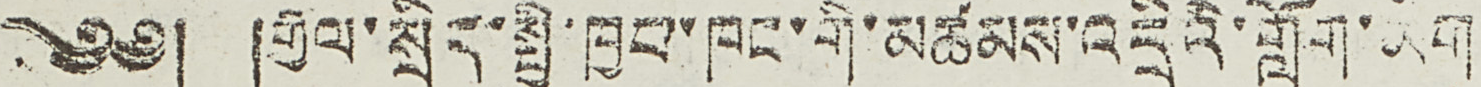༄༅། །རྒྱལ་སྲིད་སྤྱི་ཁྱབ་ཁང་གི་མཚམས་འདྲིའི་གློག་ཡིག
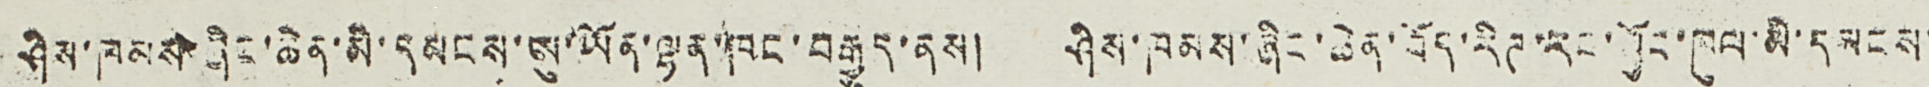ཤིས་ཁམས་ཞིང་ཆེན་མི་དམངས་ཨུ་ཡོན་ལྷན་ཁང་བརྒྱུད་ནས། ཤིས་ཁམས་ཞིང་ཆེན་བོད་རིཊ་རང་ཁུལ་མི་དམངས་
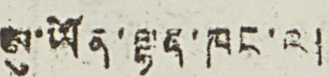ཨུ་ཡོན་ལྷན་ཁང་ལ།
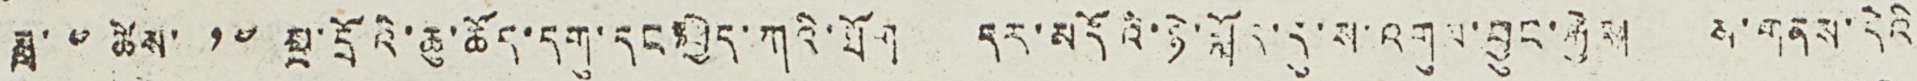ཟླ་ ༤ ཚེས་ ༡༧ སྔ་དྲོའི་ཆུ་ཚོད་དགུ་དང་ཕྱེད་ཀའི་ཐོག དར་མདོའི་ཉེ་སྐོར་དུ་ས་འགུལ་བྱུང་རྐྱེས། ས་གནས་དེའི་
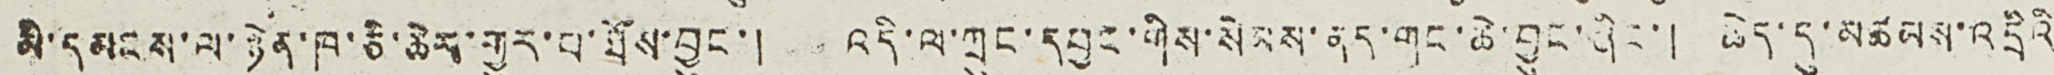མི་དམངས་ལ་ཉེན་ཁ་ཅི་ཆེར་གྱུར་པ་ཐོས་བྱུང་། འདི་ལ་ཀྲུང་དབྱང་གིས་སེམས་ནད་གང་ཆེ་བྱུང་ཞིང་། ཆེད་དུ་མཚམས་འདྲིའི་
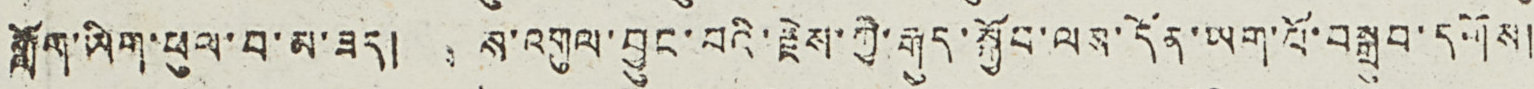གློག་ཡིག་ཕུལ་བ་མ་ཟད། ས་འགུལ་བྱུང་བའི་རྗེས་ཀྱི་རྒུད་སྐྱོབ་ལས་དོན་ཡག་པོ་བསྒྲུབ་དགོས།
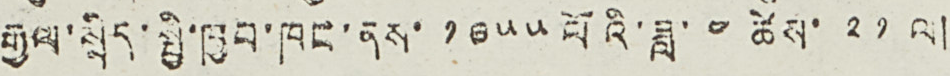རྒྱལ་སྲིད་སྤྱི་ཁྱབ་ཁང་ནས་ ༡༩༥༥ ལོའི་ཟླ་ ༤ ཚེས་ ༢༡ ལ།
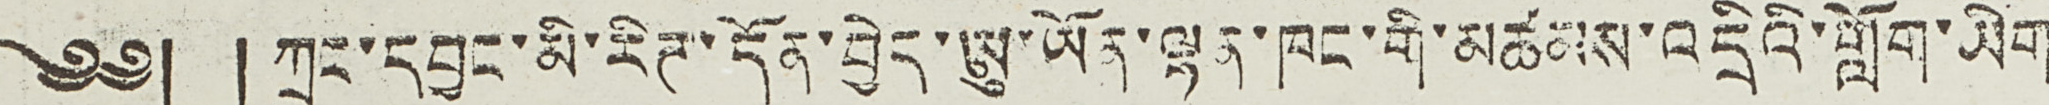༄༅། ། ཀྲུང་དབྱང་མི་རིཊ་དོན་བྱེད་ཨུ་ཡོན་ལྷན་ཁང་གི་མཚམས་འདྲིའི་གློག་ཡིག
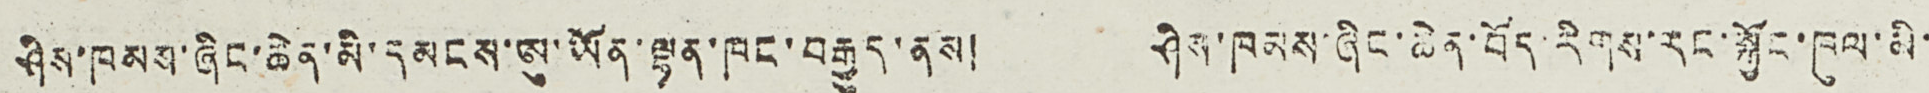ཤིས་ཁམས་ཞིང་ཆེན་མི་དམངས་ཨུ་ཡོན་ལྷན་ཁང་བརྒྱུད་ནས། ཤིས་ཁམས་ཞིང་ཆེན་བོད་རིགས་རང་སྐྱོང་ཁུལ་མི་
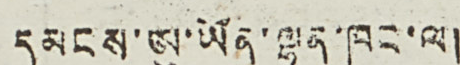དམངས་ཨུ་ཡོན་ལྷན་ཁང་ལ།
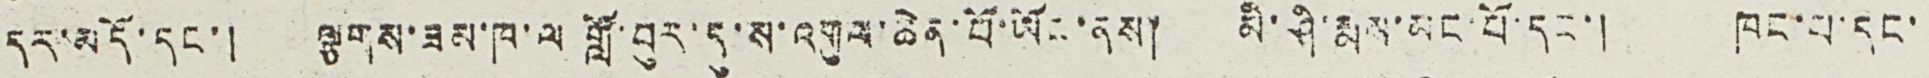དར་མདོ་དང་། ལྕགས་ཟམ་ཁ་ལ གློ་བུར་དུ་ས་འགུལ་ཆེན་པོ་ཡོང་ནས། མི་ཤི་རྨས་མང་པོ་དང་། ཁང་པ་དང་
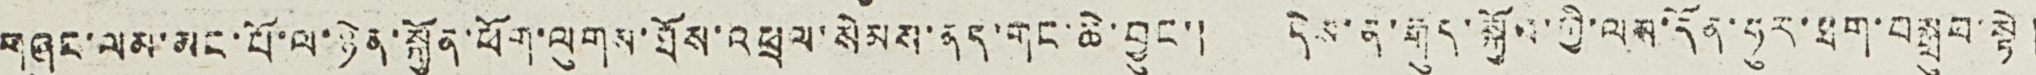གཞུང་ལམ་མང་པོ་ལ་ཉེན་སྐྱོན་ཕོག་ལུགས་ཐོས་འཕྲལ་སེམས་ནད་གང་ཆེ་བྱུང་། དེས་ན་རྒུད་སྐྱོབ་ཀྱི་ལས་དོན་ཧུར་ཐག་བསྒྲུབ་སྟེ།
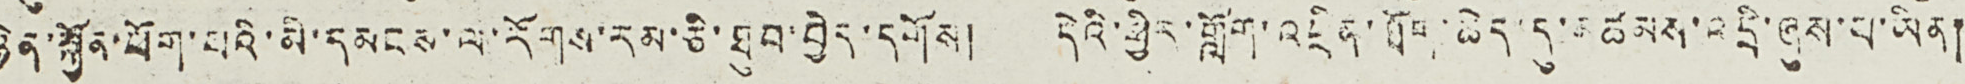ཉེན་སྐྱོན་ཕོག་པའི་མི་དམངས་ལ་རོགས་རམ་ཅི་ཐུབ་བྱེད་དགོས། དེའི་ཕྱིར་གློག་འཕྲིན་ཐོག་ཆེད་དུ་མཚམས་འདྲི་ཞུས་པ་ཡིན།
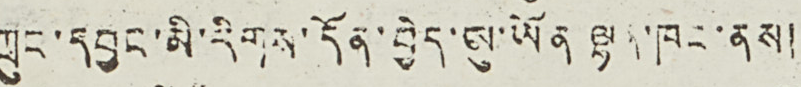ཀྲུང་དབྱང་མི་རིགས་དོན་བྱེད་ཨུ་ཡོན ལྷན་ཁང་ནས།
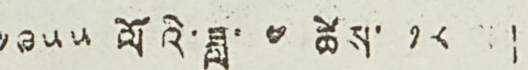༡༩༥༥ ལོའི་ཟླ་ ༤ ཚེས་ ༡༨ །
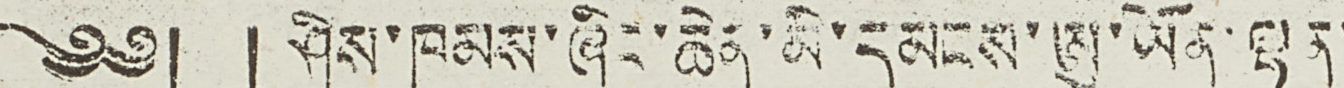༄༅། ། ཤིས་ཁམས་ཞིང་ཆེན་མི་དམངས་ཨུ་ཡོན་ལྷན་
